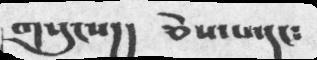གསུངས།། ཅེས་པ་དང༴
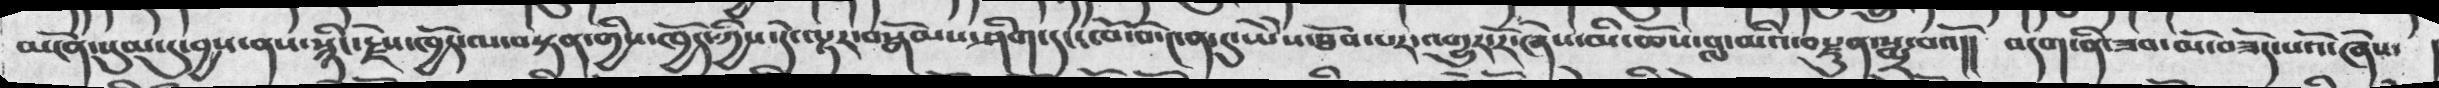མངོན་སུམ་དུ་བྱས་ནས་སྙིང་རྗེས་ཁྱོད་ལ་བསྟན་གྱིས་ཁྱོད་ཀྱིས་དེ་ལྟར་བསྒོམས་ཤིག་དང་ཁོ་བོ་༤ན་དུ་ཡཻས་ཐོབ་པར་འགྱུར་རོ་ཞེས་མི་ཆོས་བླ་མའི་བསྫུན་སྨྲ་བའོ།། བདག་ནི་ཟབ་མོ་བཟོད་པའོ་ཞེས་
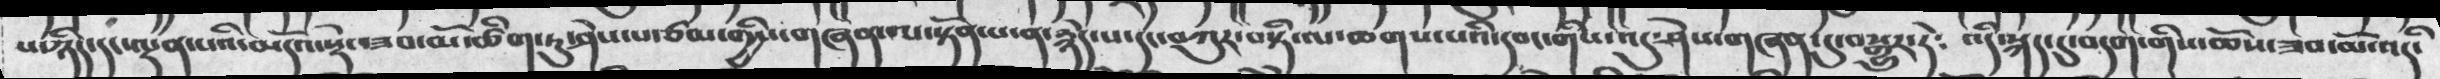པ་ཉིད་དང་ལྡན་པའི་མདོའ་སྡེ་ཟབ་མོ་ཚིག་ཏུ་ཤེས་པ་ཙམ་གྱིས་གཞན་ལ་སྟོན་པ་ན་རྙེད་པ་དང་བཀུར་བསྟི་ལ་ཆགས་པའི་དབང་གིས་འདུ་ཤེས་གཞན་དུ་བསྒྱུར་ཏེ༴ འདི་སྐད་དུ་བདག་གིས་ཆོས་ཟབ་མོ་འདི་
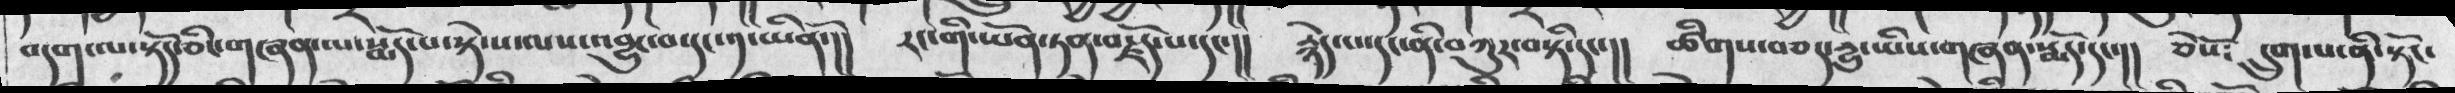བདག་ལ་སྟོད་ཅིང་གཞན་ལ་སྨོད་པ་སྟེ་ས་ལས་འབྱུང་བ་དང་༡་ཡིནོ་།།  རང་གི་ཡོན་ཏན་བརྗོད་པ་དང་།།  རྙེད་པ་དང་ནི་བཀུར་བསྟི་དང་།།  ཚིགས་བཅད་དྱུ་ཡིས་གཞན་སྨོད་དང་།།  ཅེསོ༴ དྲུག་པ་ནི་སྟོང་
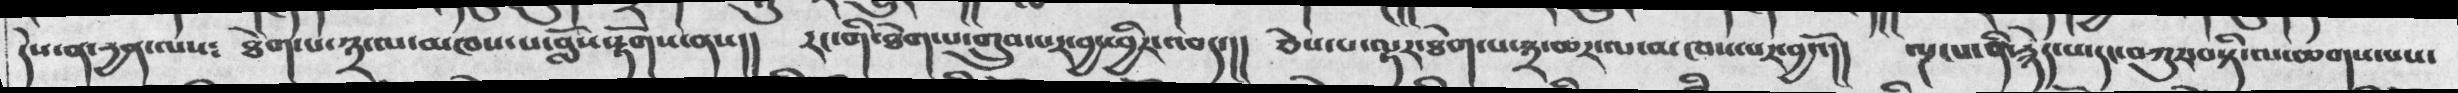དེས་ན་དྱན་ལས༴  ཐེག་པ་༣་ལ་མཁས་པ་བློས་རྟོགས་ནས།།  རང་གི་ཐེག་པ་གྲུབ་པར་བྱ་ཕྱིར་འབད་།། ཅེས་པ་ལྟར་ཐེག་པ་༣་ཆར་ལ་མཁས་པར་བྱའོ།། ལྔ་པ་ནི་རྙེད་པ་དང་བཀུར་བསྟི་ལ་ཆགས་པས་
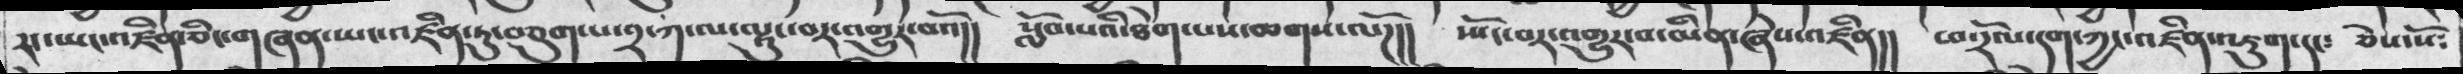རང་ཡང་འཛིན་ཅིང་གཞན་ཡང་འཛིན་ཏུ་བཅུག་པ་༢་ཀ་ལ་ལྟུང་བར་འགྱུར་བའོ།། སློབ་པའི་ཐེག་པས་ཆགས་ལོཌ།། སྤོང་བར་འགྱུར་བ་ཡིན་ཞེས་འཛིན།། ཕ་རོལ་དག་ཀྱང་འཛིན་འཇུག་དང༴ ཅེས་སོ༴
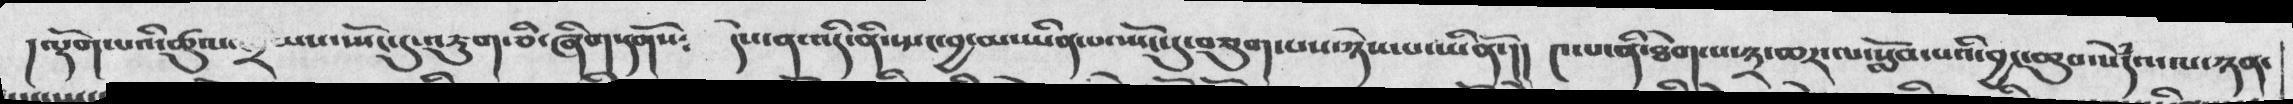།ལྡོག་པའི་ཚུལ་ཁྲིམས་སྤོང་དུ་འཇུག་ཅི་ཞིག་དགོས༴   དེས་ན་འདི་ནི་སྤང་བྱ་མ་ཡིན་པ་སྤོང་དུ་བཅུག་པས་ཉེས་པ་ཡིནོ་།།   ༤་པ་ནི་ཐེག་པ་༣་ཆར་ལ་སློབ་པའི་བྱང་ཆུབ་སེཾདའ་ལ་ཉན་
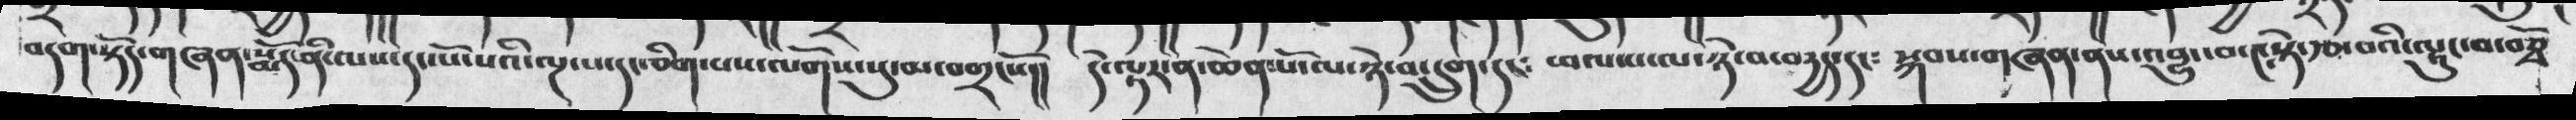བདག་སྟོད་གཞན་སྨོད་ནི་ལས་དང་སོ་སོའི་ལྔ་པ་དང་ཅིག་པས་ལོགས་སུ་མ་བགྲངསོ།།  དེ་ལྟར་ན་ཆེན་པོ་ལ་ཉེ་བ་དྲུག་དང༴  ཕལ་པ་ལ་ཉེ་བདྱད་དང༴ སྐབས་གཞན་ནས་འབྱུང་བ་༤སྟེ་རྩ་བའི་ལྟུང་བ་བཅྭོ
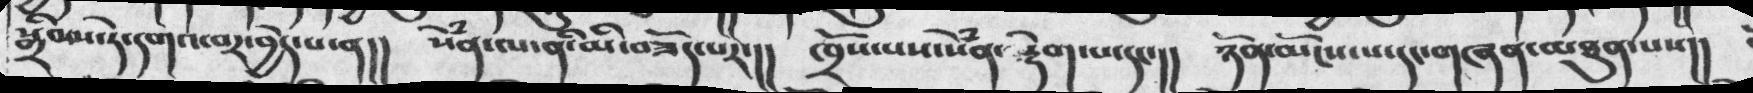སྒྲིབས་ཏེ་དགའ་བར་བྱེད་པ་ན།། སེཾན་ལ་ནི་མི་བཟོད་པར་།། ཁྲོས་པས་སེཾན་རྡེག་པ་དང་།། ཉོན་མོངས་པ་དང་གཞན་མཐུན་པས།།
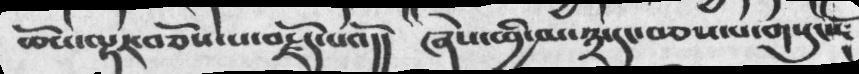ཆོས་ལྟར་བཅོས་པ་བརྗོད་པའོ།།  ཞེས་ཕྱི་མ་༣་དང་བཅས་པ་གསུངསོ༴
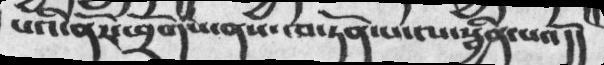པའི་ནོར་ཕྲོགས་ནས་ཁ་ཏོན་པ་ལ་སྦྱིན་པའོ།།
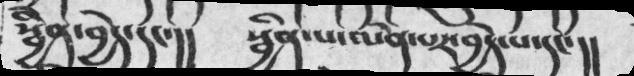སྦྱིན་བྱེད་དང་།། སྦྱིན་པ་ལེན་པར་བྱེད་པ་དང་།།
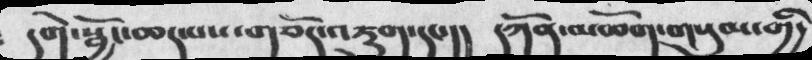དགེ་སྦྱོང་ཆད་པས་གཅོད་འཇུག་དང་།། དཀོན་མཆོག་གསུམ་གྱི་
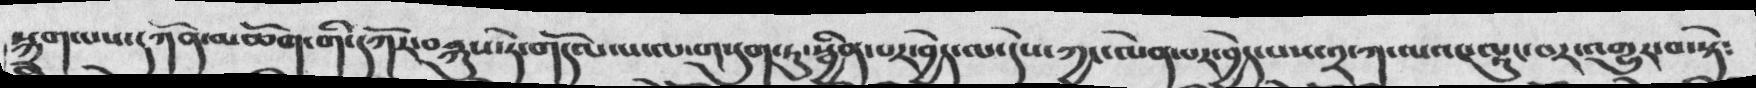སྐྲག་པས་དཀོན་མཆོག་གི་དཀོར་བརྐུས་ཏེ་གདོལ་པ་ལ་ག་དུག་ཏུ་སྦྱིན་པར་བྱེད་ལ་དེས་ཀྱང་ལེན་པར་བྱེད་པས་༢་ཀ་ལའང་ལྟུང་བར་འགྱུར་བ་སྟེ༴
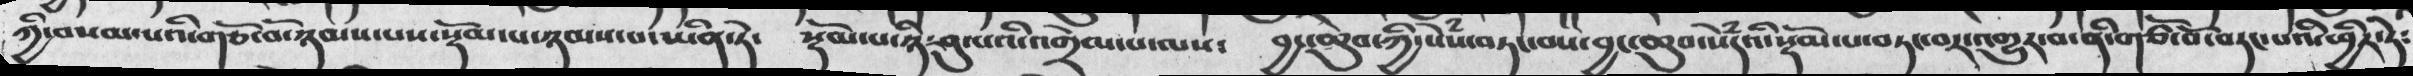ཀྱི་བསམ་པའི་གཙོ་བོ་ཉམས་པས་སྡོམ་པ་ཉམས་པ་ཡིན་ཏེ་ སྡོམ་པ་ཉི་ཤུ་པའི་འགྲེལ་པ་ལས་ བྱང་ཆུབ་ཀྱི་སེཾས་བཏང་བས་བྱང་ཆུབ་སེཾདའི་སྡོམ་པ་བཏང་བར་འགྱུར་བ་ནི་གཙོ་བོ་བཏང་པའི་ཕྱིར་ཏེ༴
